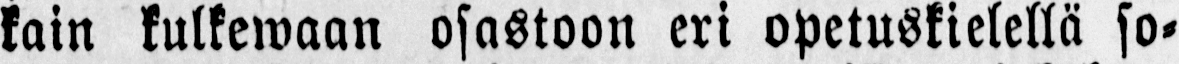kain kulkewaan osastoon eri opetuskielellä so-
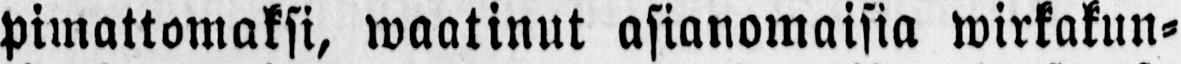pimattomaksi, waatinut asianomaisia wirkakun-
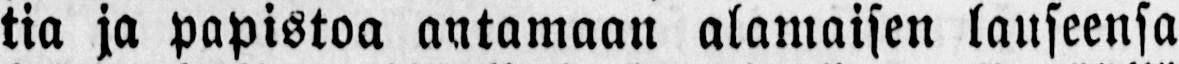tia ja papistoa antamaan alamaisen lauseensa
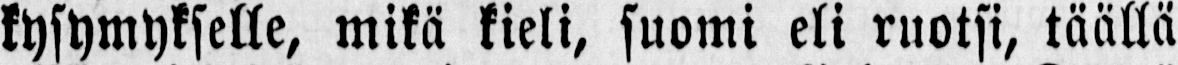kysymykselle, mikä kieli, suomi eli ruotsi, täällä
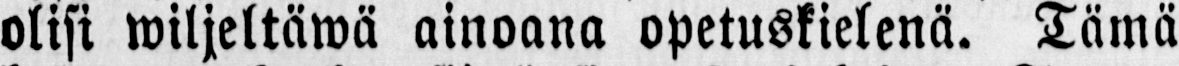olisi wiljeltäwä ainoana opetuskielenä. Tämä
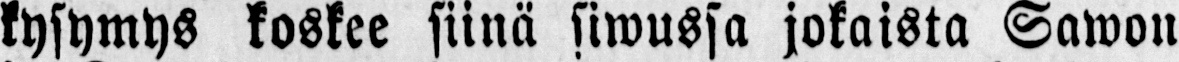kysymys koskee siinä siwussa jokaista Sawon
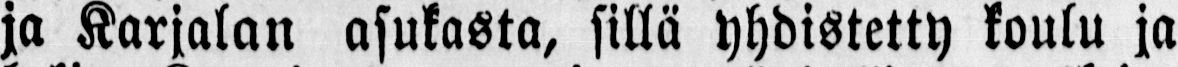ja Karjalan asukasta, sillä yhdistetty koulu ja
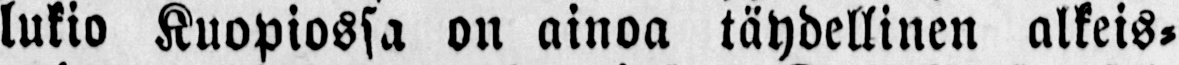lukio Kuopiossa on ainoa täydellinen alkeis-
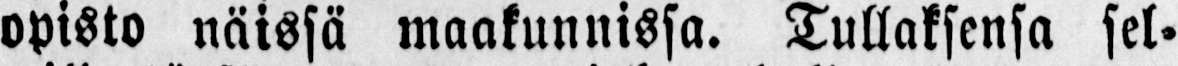opisto näissä maakunnissa. Tullaksensa sel-
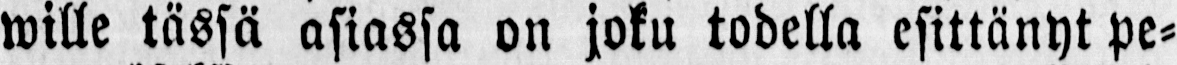wille tässä asiassa on joku todella esittänyt pe-
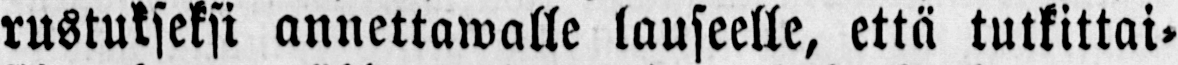rustukseksi annettawalle lauseelle, että tutkittai-
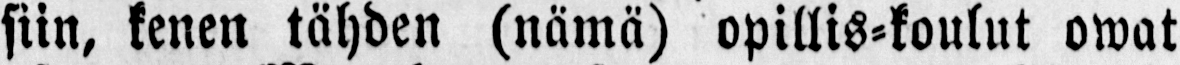siin, kenen tähden (nämä) opillis-koulut owat
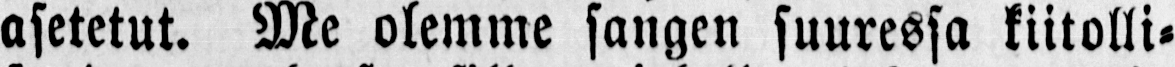asetetut. Me olemme sangen suuressa kiitolli-
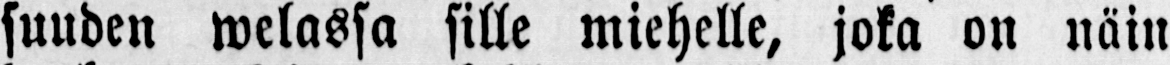suuden welassa sille miehelle, joka on näin
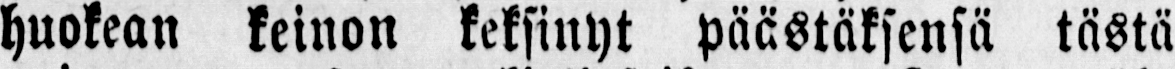huokean keinon keksinyt päästäksensä tästä
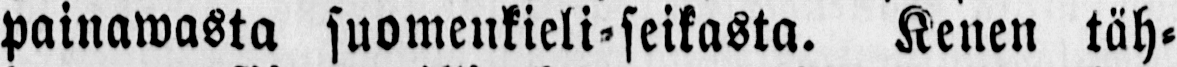painawasta suomenkieli-seikasta. Kenen täh-
